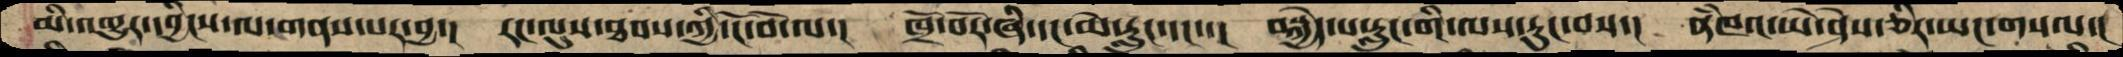མི་འགྱུར་དབྱིངས་ལ་གནས་པར་བྱ་།  རང་ལུས་ཐབས་ཀྱི་ངོ་བོ་ལ་།  ཁྲོ་བོར་ཞི་དང་མེ་རླུང་དང་། བསྐྱེད་པ་རླུང་གི་ལས་རུང་བས་།  ནཾཁའ་ཡེ་ཤེས་ཅིར་ཡང་གསལ་།
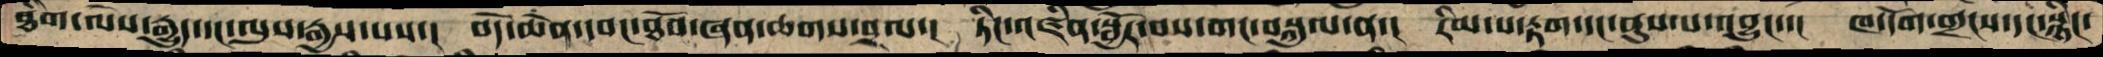ཐིག་ལེས་རྒྱུད་དང་ལུས་རྒྱས་པས་།  བདེ་ཆེན་དབང་ཐོབ་ཞན་ཆགས་བྲལ་།  ཏིང་འཛིན་སྦྱོར་བས་གང་བསྐུལ་ན་།  རིམ་པ་རྟག་དང་ནུས་པ་འབྱུང་་།  ཁ་དོག་གྲངས་དང་སྙིང་
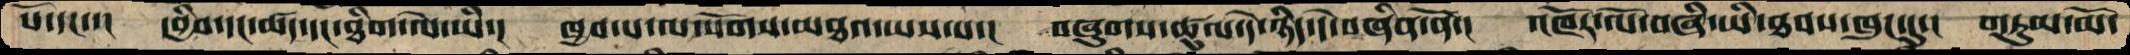པོ་དང་་།  དབྱིབས་དང་ཚད་དང་ཐིག་ལེ་ཡི་།  ཁྱབ་པ་ལ་སོགས་མཐའ་ཡས་པ་།  བཞུགས་ཚུལ་དེ་ཉིད་དེ་བཞིན་ནོ་།  འཁོར་ལོ་བཞི་ཡི་ཐབས་ཁུང་དུ་།  གཏུམ་མོ་
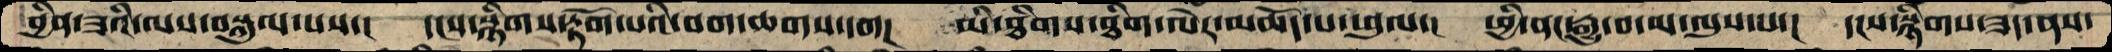བྱིན་ཟའི་ལས་བསྐུལ་པས་།  དངས་སྙིགས་རྟོག་པའི་བག་ཆགས་དག།  མི་ཐིགས་ཐིག་ལེར་མཆོད་པ་ཕུལ་།  ཕྱི་ནང་རྒྱུ་བ་མ་ལུས་པ་།  དངས་སྙིགས་ཟད་ནས་
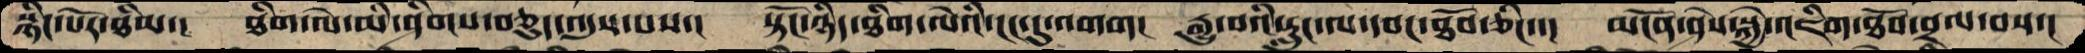སྙིང་པོར་ཐིམ་།  ཐིག་ལེ་མི་ཤིགས་བཅུད་འདུས་པས་།  སྟོང་ཉིད་ཐིག་ལེའི་ངང་དུ་འགག།  རྒྱུ་བའི་རླུང་ལ་དབང་ཐོབ་ཅིང་་།  མངོན་ཤེས་སྐྱེ་འཇིག་ཐོབ་བྲལ་བས་།
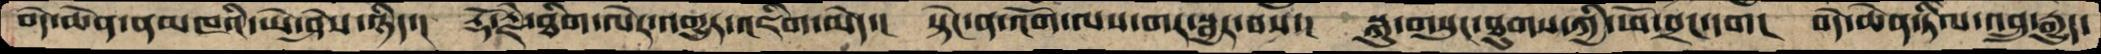བདེ་ཆེན་ནམཁའི་ཡེ་ཤེས་ཉིད་།  རྡོ་རྗེ་ཐིག་ལེར་འགྱུར་འཇིག་མེད་།  སྟེང་ན་འོག་ལས་གར་སྦྱར་བསོ་།  སྐུ་གསུང་ཐུགས་ཀྱི་ཕོ་བྲང་དག།  བདེ་ཆེན་ཏིལ་འབྲུ་རྒྱུད་
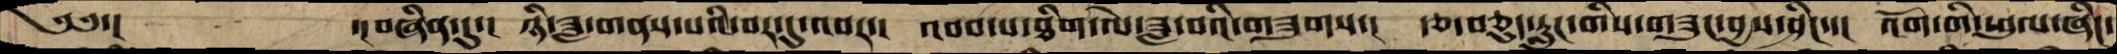༄༅་།    ་།བཞིན་དུ་།   ཉི་ཟླ་གནས་པའི་བར་དུ་འབར་།   འབབ་པ་ཐིག་ལེ་ཟླ་བའི་གཟུགས་།  རྩ་བཅུད་རླུང་གིས་གཟུང་བྱས་ཤིང་་།   འོག་གི་ཕུལ་ཞིང་
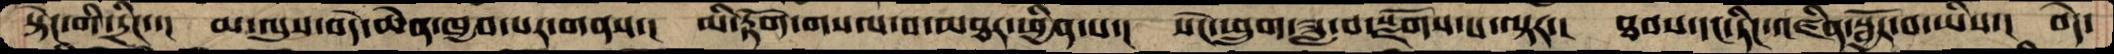སྟེང་གི་དྲིང་།  མ་ལུས་བདེ་ཆེན་ཁྱབ་པར་གནས་།  མི་རྟོག་གསལ་བ་མཐར་ཕྱིན་པ་།  སེང་ཕྲུག་ཟླ་བ་སྫོགས་པ་ལྟར་།  ཐབས་དང་ཏིང་འཛིན་སྦྱོར་བ་ཡིས་།  བདེ་
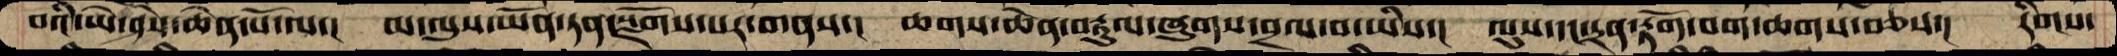བའི་ཡེ་ཤེས་ཆེན་པོ་ལ་།  མ་ལུས་ཡོན་ཏན་སྫོགས་པར་གནས་།  ཆགས་ཆེན་བརྟུལ་ཞུགས་བྲལ་བ་ཡིས་།  ལུས་དང་དྲན་རྟོག་བག་ཆགས་བཅས་།  རིགས་
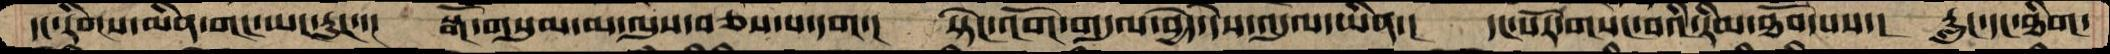་།་རིགས་མིན་གང་ཡང་རུང་་།  སྒོ་གསུམ་མ་ལུས་བཅས་པ་དག་།  སྟེང་འོག་གདུལ་བྱེད་དེས་འདུལ་ཡིན་།  དང་པོར་གསང་བའི་རིམ་ཐོབ་པས་།  རླུང་དང་ཐིག་
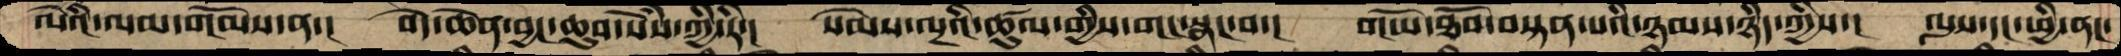ལེའི་ལམ་གོམས་ན་།  བདེ་ཆེན་བྱང་ཆུབ་སེཾས་ཀྱི་རི་།  སེམས་ལྔའི་ཚུལ་གྱིས་གང་སྣང་བ་།  གཡོ་ཐོབ་བསྟན་པའི་ཉམས་ཉིད་ཀྱིས་།   ལུས་དང་ཕྱི་ནང་
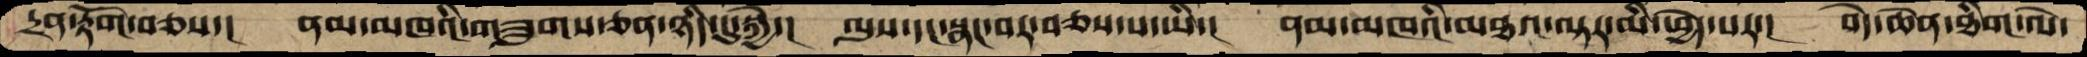དྲན་རྟོག་བཅས་།  ནམ་མཁའི་གཟུགས་ཅན་ཉིད་དུ་སྐྱེ་།  ལུས་དང་སྣང་བར་བཅས་པ་ཡི་།  ནམ་མཁའི་མཐའ་ལྟར་མི་ཕྱེད་པར་།  བདེ་ཆེན་ཐིག་ལེ་
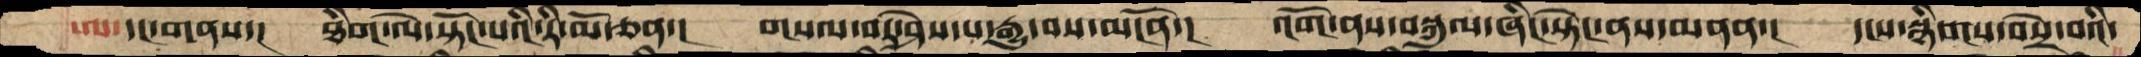ཨ་དང་གནས་།  ཐིག་ལེ་སྟོང་པའི་རི་མོ་ཅན་།  གསལ་བར་ཤེས་པ་རྒྱུ་བས་མངོན་།   འོག་ནས་བསྐུལ་ཞིང་སྟེང་ནས་མནན་།  དངས་སྙིགས་བསྲེ་བའི་
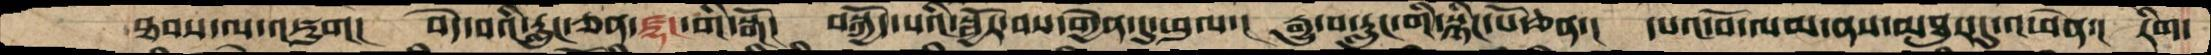ཐབས་ལ་འཇུག།  བདེ་བའི་རླུང་ཅན་ཛྷང་གི་སྒོ་།  བསྐྱོད་པའི་སྦྱོར་བས་གྱེན་དུ་ཕུལ་།  རྒྱུ་བ་རླུང་གི་སྙིང་པོ་ཅན་།  དཔའ་བོ་ལམ་ནས་མཐུར་དུ་འཕེན་།  རིག་
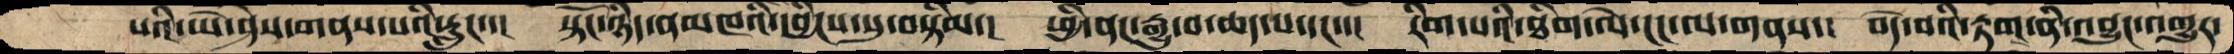པའི་ཡེ་ཤེས་གནས་པའི་རླུང་་།  སྟོང་ཉིད་ནམཁའི་དབྱིངས་སུ་བསྟིམ་།  ཕྱི་ནང་རྒྱུ་བ་ཆད་པ་དང་་།  རིག་པའི་ཐིག་ལེ་ངང་ལ་གནས་།  བདེ་བའི་རྟག་ནི་འབྱུང་འགྱུར་
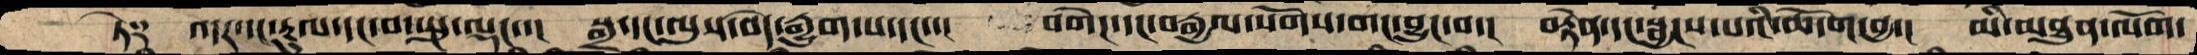ཏེ༑  འདར་དང་རྡུལ་དང་བ་སྤུ་ལྡང་་།  སྒྲ་དང་ལུས་བདེ་རྒྱུག་པ་དང་་།  བགེཌ་དང་བརྒྱལ་སོགས་གང་བྱུང་བ་།  བརྟེན་དང་སྦྱངས་པའི་ཆོ་ག་བྱ་།  མི་མཐུན་ལོག་
